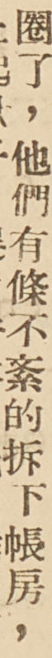圈了，他們有條不紊的拆下帳房，
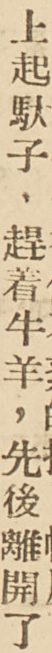上起䭾子，趕着牛羊，先後離開了
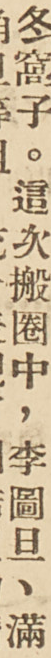冬窩子。這次搬圈中，李圖旦、滿
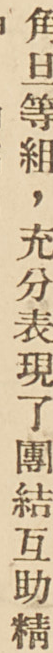角旦等組，充分表現了團結互助精
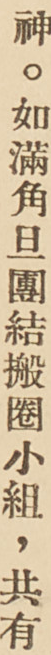神。如滿角旦團結搬圈小組，共有
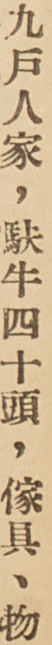九戶人家，䭾牛四十頭，傢具、物
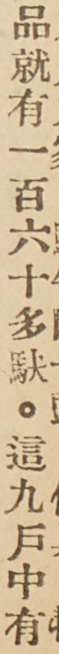品就有一百六十多䭾。這九戶中有
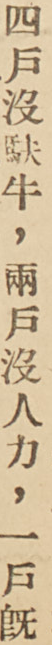四戶沒䭾牛，兩戶沒人力，一戶既
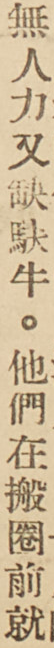無人力又缺䭾牛。他們在搬圈前就
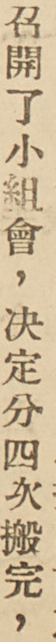召開了小組會，決定分四次搬完，
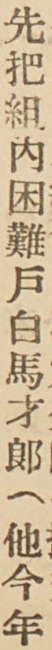先把組內困難戶白馬才郎（他今年
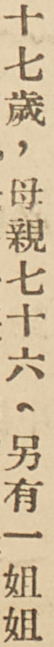十七歲，母親七十六，另有一姐姐
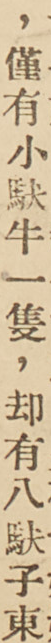，僅有小䭾牛一隻，卻有八䭾子東
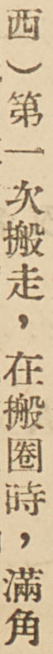西）第一次搬走，在搬圈時，滿角
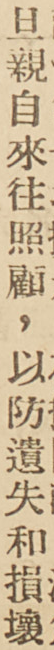旦親自來往照顧，以防遺失和損壞
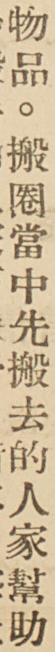物品。搬圈當中先搬去的人家幫助
